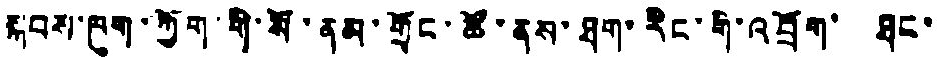སྐབས་ཁུག་ཀྱོག་གི་སོ་ནམ་གྲོང་ཚོ་ནས་ཐག་རིང་གི་འབྲོག་ ཐང་
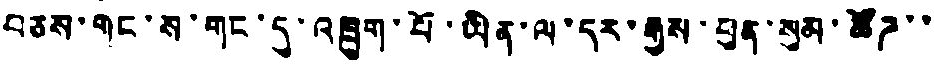བཅས་གང་ས་གང་དུ་འཁྲུག་པོ་ཡིན་ལ་དར་རྒྱས་ཕུན་སུམ་ཚོཌ་་
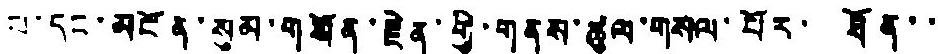པ་དང་མངོན་སུམ་གསོན་རྗེན་གྱི་གནས་ཚུལ་གསལ་པོར་ ཐོན་་
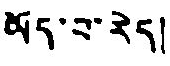ཡོད་པ་རེད།
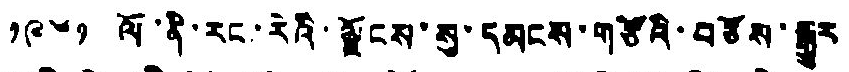༡༩༦༡ ལོ་ནི་རང་རེའི་ལྗོངས་སུ་དམངས་གཙོའི་བཅོས་སྒྱུར
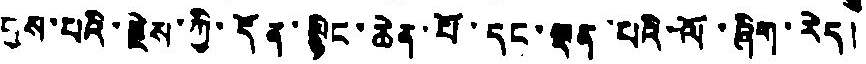བྱས་པའི་རྗེས་ཀྱི་དོན་སྙིང་ཆེན་པོ་དང་ལྡན་པའི་ལོ་ཞིག་རེད།
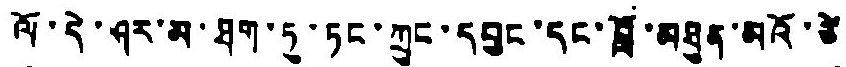ལོ་དེ་ཤར་མ་ཐག་ཏུ་ཏང་ཀྲུང་དབྱང་དང་བློ་མཐུན་མའོ་ཙེ་
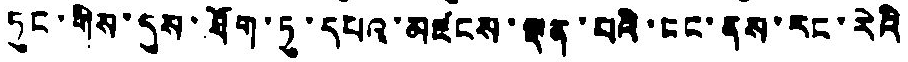ཏུང་གིས་དུས་ཐོག་ཏུ་དཔའ་མཛངས་སྡན་པའི་ངང་ནས་རང་རེའི
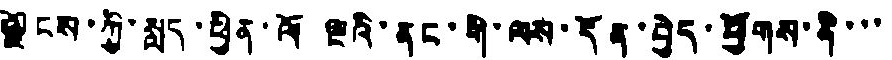ལྗོངས་ཀྱི་སླད་ཕྱིན་ལོ ལྔའི་ནང་གི་ལས་དོན་བྱེད་ཕྱོགས་ནི་་་
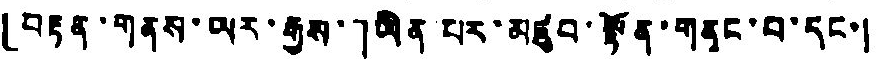「བརྟན་གནས་ཡར་རྒྱས་」ཡིན པར་མཛུབ་སྟོན་གནང་བ་དང་།
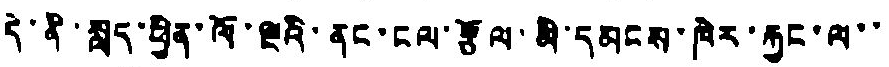དེ་ནི་སླད་ཕྱིན་ལོ་ལྔའི་ནང་ངལ་རྩོལ་མི་དམངས་ཁེར་རྐྱང་ལ་་
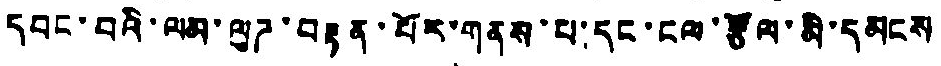དབང་བའི་ལམ་ལུཌ་བརྟན་པོར་གནས་པ་དང་ངལ་རྩོལ་མི་དམངས
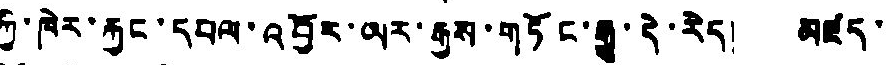ཀྱི་ཁེར་རྐྱང་དཔལ་འབྱོར་ཡར་རྒྱས་གཏོང་རྒྱུ་དེ་རེད། མཛད་
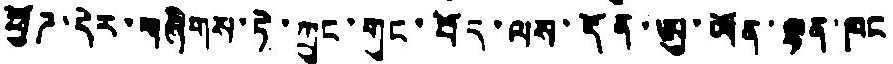ཕྱོཌ་དེར་གཞིགས་ཏེ་ཀྲུང་གུང་བོད་ལས་དོན་ཨུ་ཡོན་ལྷན་ཁང
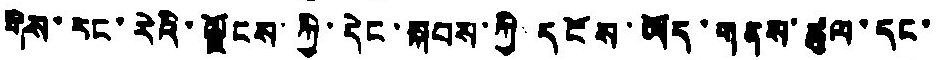གིས་རང་རེའི་ལྗོངས་ཀྱི་དེང་སྐབས་ཀྱི དངོས་ཡོད་གནས་ཚུལ་དང་
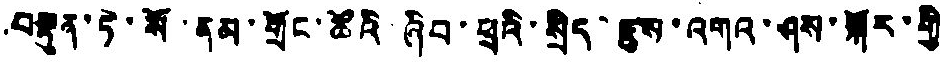བསྟུན་ཏེ་སོ་ནམ་གྲོང་ཚོའི ཞིབ་ཕྲའི་སྲིད་རྩས་འགའ་ཤས་སྐོར་གྱི
